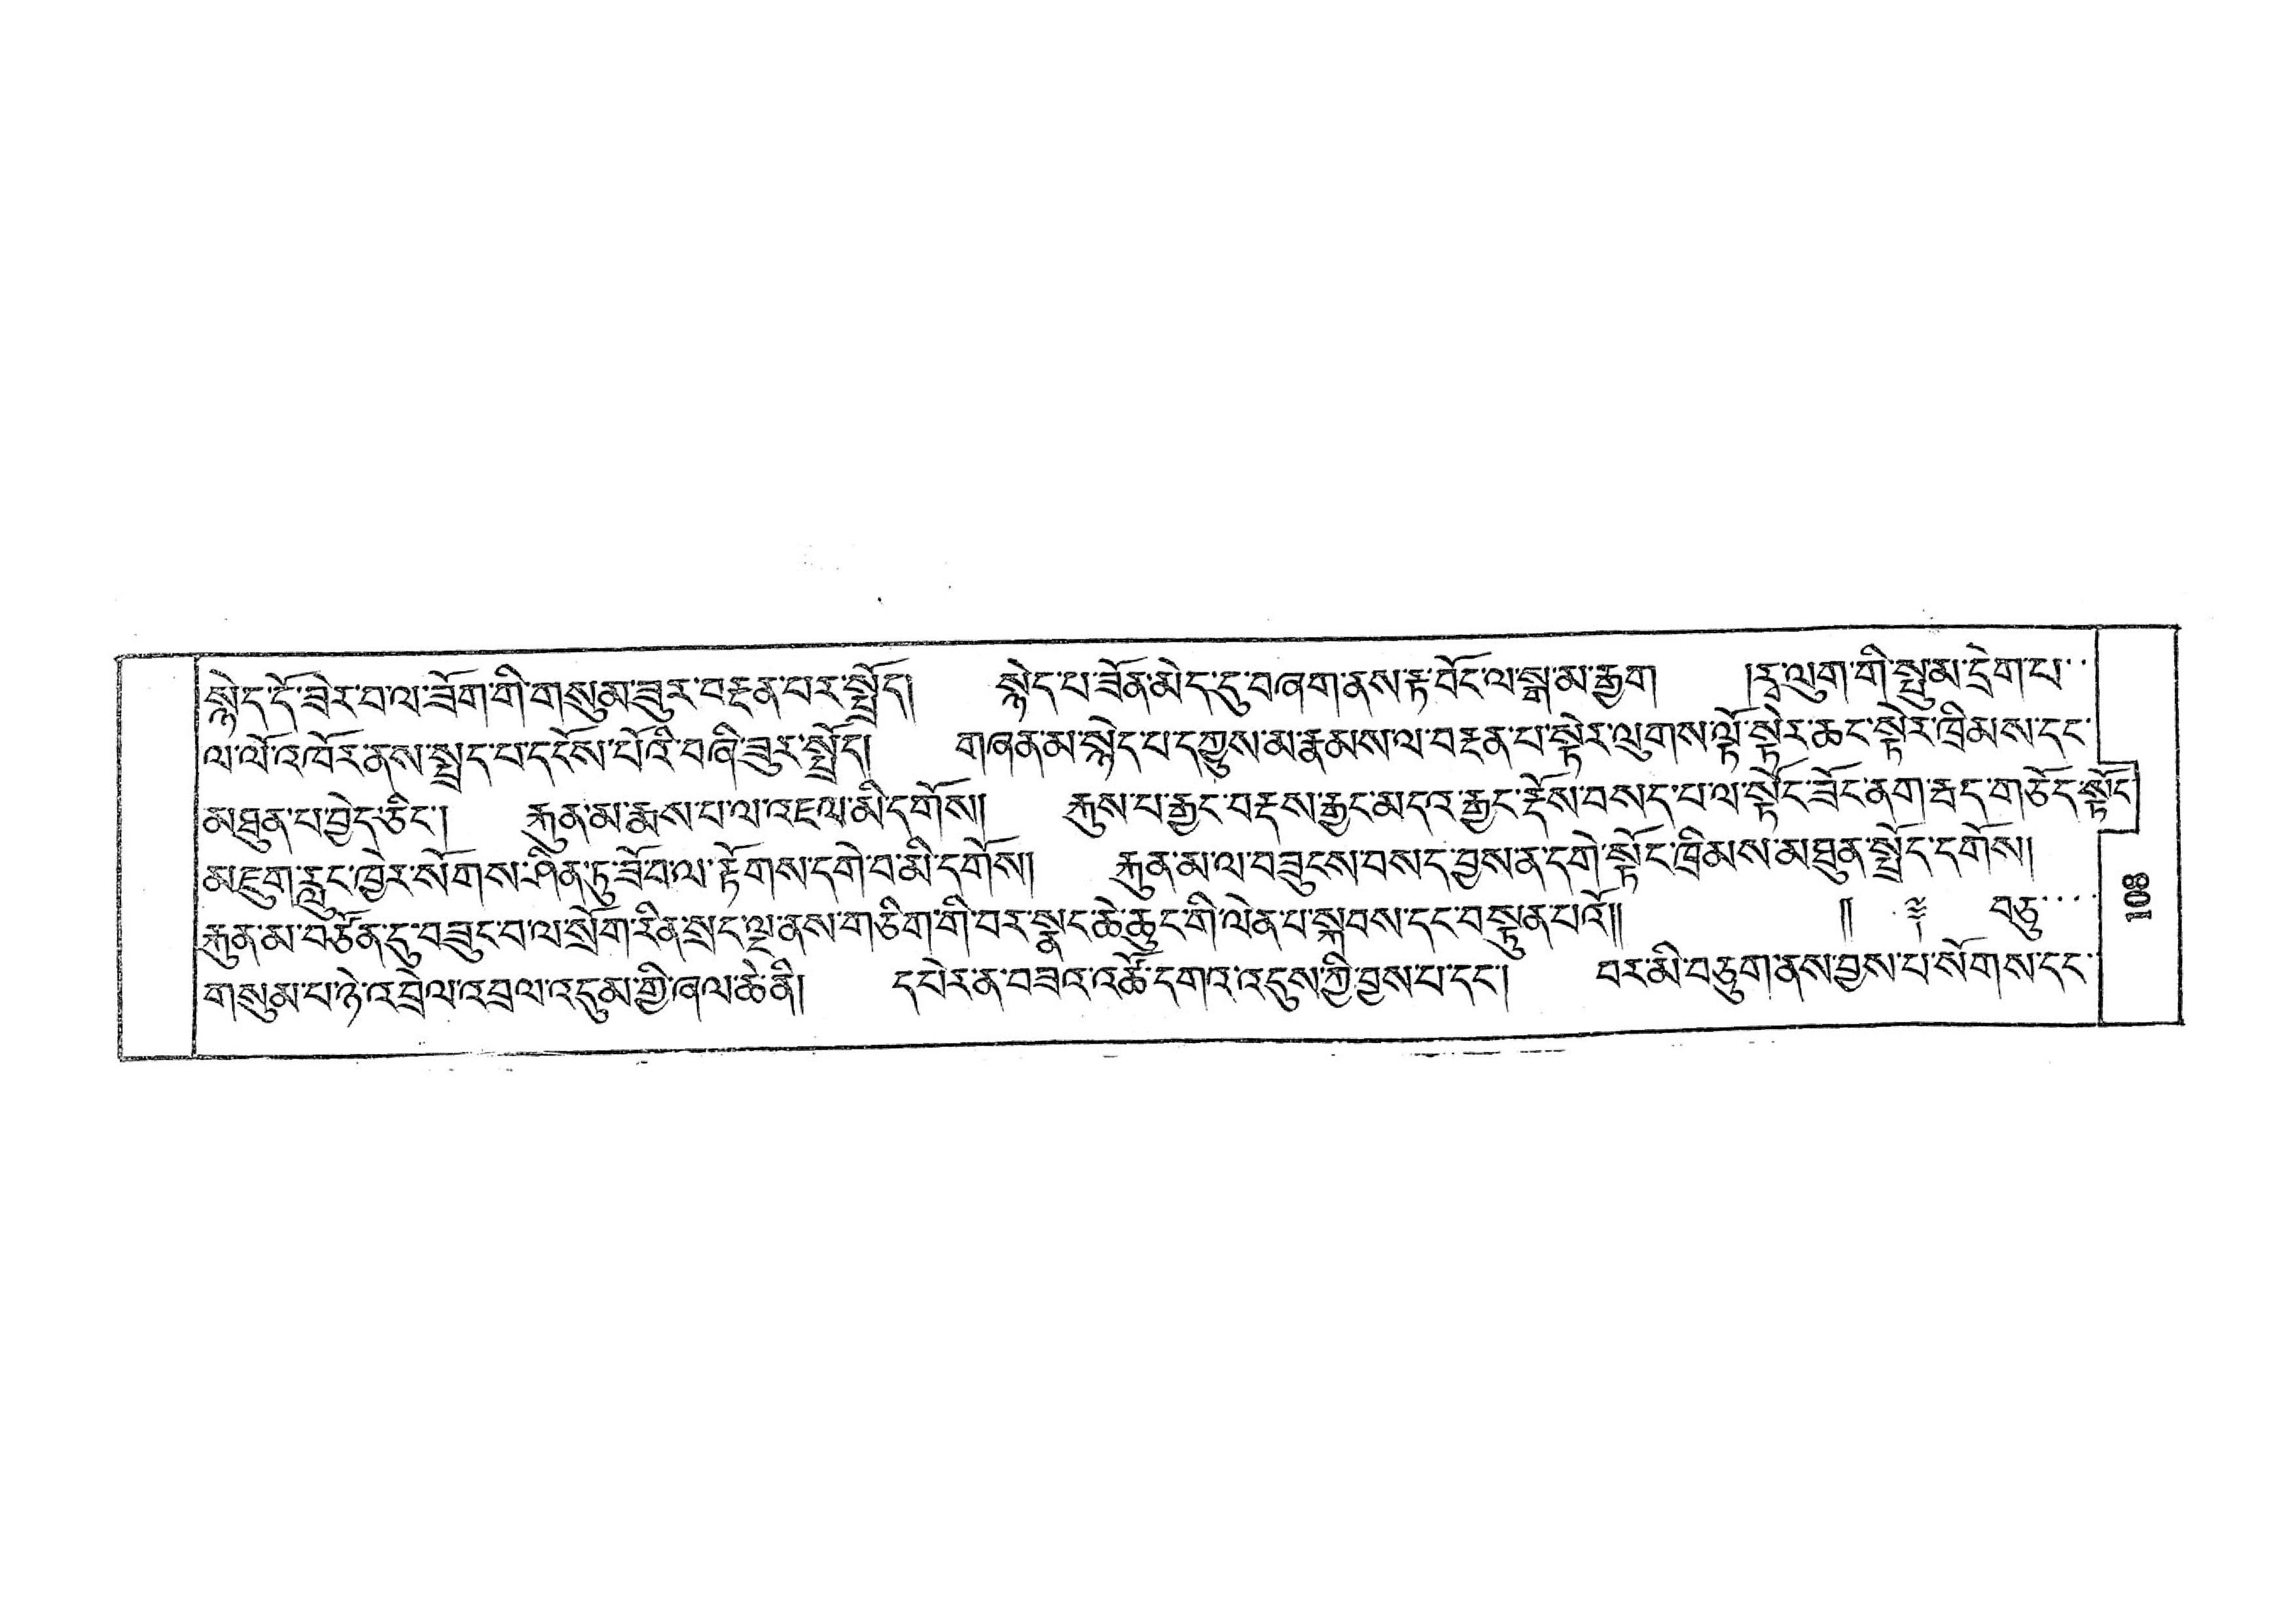སྙེད་དོ་ཟེར་བ་ལ་ཟོག་གི་གསུམ་ཟུར་བརྔན་པར་སྤྲོད། སྙེད་པ་ཟོན་མེད་དུ་བཞག་ནས་རྟ་བོང་ལ་སྒ་མ་རྒྱག །རྭ་ལུག་གི་སྤུ་མ་དྲེག་པ་་
ལ་ལོ་འཁོར་ནས་སྤྲད་པ་དངོས་པོའི་བཞི་ཟུར་སྤྲོད། གཞན་མ་སྙེད་པ་དཀྱུས་མ་རྣམས་ལ་བརྔན་པ་སྟེར་ལུགས་སྟོ་སྟེར་ཆང་སྟེར་ཁྲིམས་དང་
མཐུན་པ་བྱེད་ཅིང་། རྐུན་མ་རྨས་པ་ལ་འཇལ་མི་དགོས། རྐུས་པ་རྒྱང་བརྡས་རྒྱང་མདའ་རྒྱང་རྡོས་བསད་པ་ལ་སྟོང་ཟོང་ནག་རྦད་གཅོད་སྟོང་
མཇུག་རླུང་ཁྱེར་སོགས་ཤིན་ཏུ་ཟོབ་ལ་རྟོགས་དགེ་བ་མི་དགོས། རྐུན་མ་ལ་བཟུངས་བསད་བྱས་ན་དགེ་སྟོང་ཁྲིམས་མཐུན་སྤྲོད་དགོས།
རྐུན་མ་བཙོན་དུ་བཟུང་བ་ལ་སྲོག་རིན་སྲང་ལྔ་ནས་གཅིག་གི་བར་སྣང་ཆེ་ཆུང་གི་ལེན་པ་སྐབས་དང་བསྟུན་པའོ།།  །། ༈ བཅུ་་་་
གསུམ་པ་ཉི་འབྲེལ་འབྲལ་འདུམ་གྱི་ཞལ་ཆེ་ནི། དཔེར་ན་བཟའ་འཚོ་དགའ་འདུས་ཀྱི་བྱས་པ་དང་། བར་མི་བཅུག་ནས་བྱས་པ་སོགས་དང་
